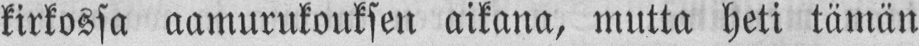kirkossa aamurukouksen aikana, mutta heti tämän
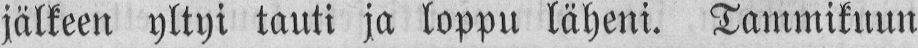jälkeen yltyi tauti ja loppu läheni. Tammikuun
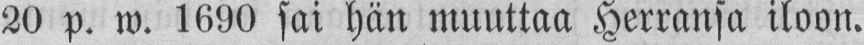20 p. w. 1690 sai hän muuttaa Herransa iloon.
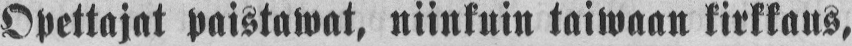Opettajat paistoivat, niinkuin tuimaan kirkkaus,
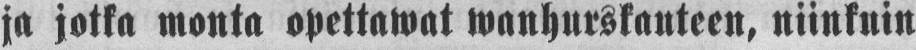ja jotka monta opettawat wanhurskanteen, niinkuin
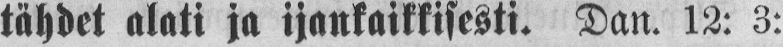tähdet alati ja ijankaikkisesti. Dan. 12: 3:
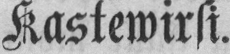Kastewirsi.
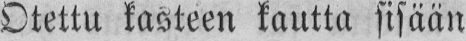Otettu kasteen kautta sisään
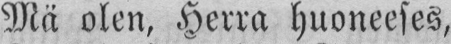Mä olen, Herra huoneeses,
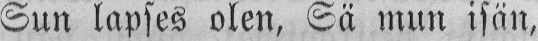Sun lapses olen, Sä mun isän,
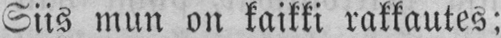Siis mun on kaikki rakkautes;
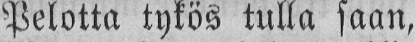Pelotta tykös tulla saan,
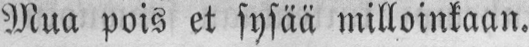Mua pois et sysää milloinkaan.
